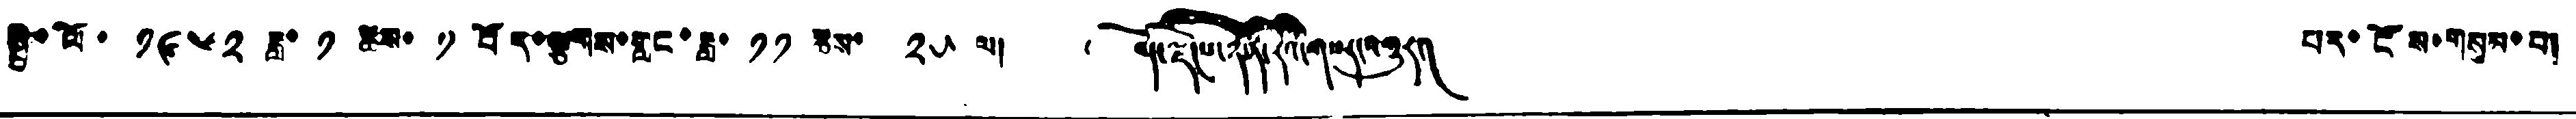སྤྱི་ལོ་ ༡༩༦༢ ཟླ་ ༡ ཚེས་ ༡ བོད་ལྕགས་གླང་ཟླ་ ༡༡ ཚེས་ ༢༥ ལ། ༄ བོད་ལྗོངས་ཉོན་རེའི་གསར་འགྱུར། པར་ངོས་གསུམ་པ།
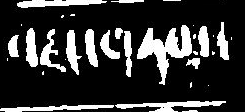བརྗོད་གཏམ་
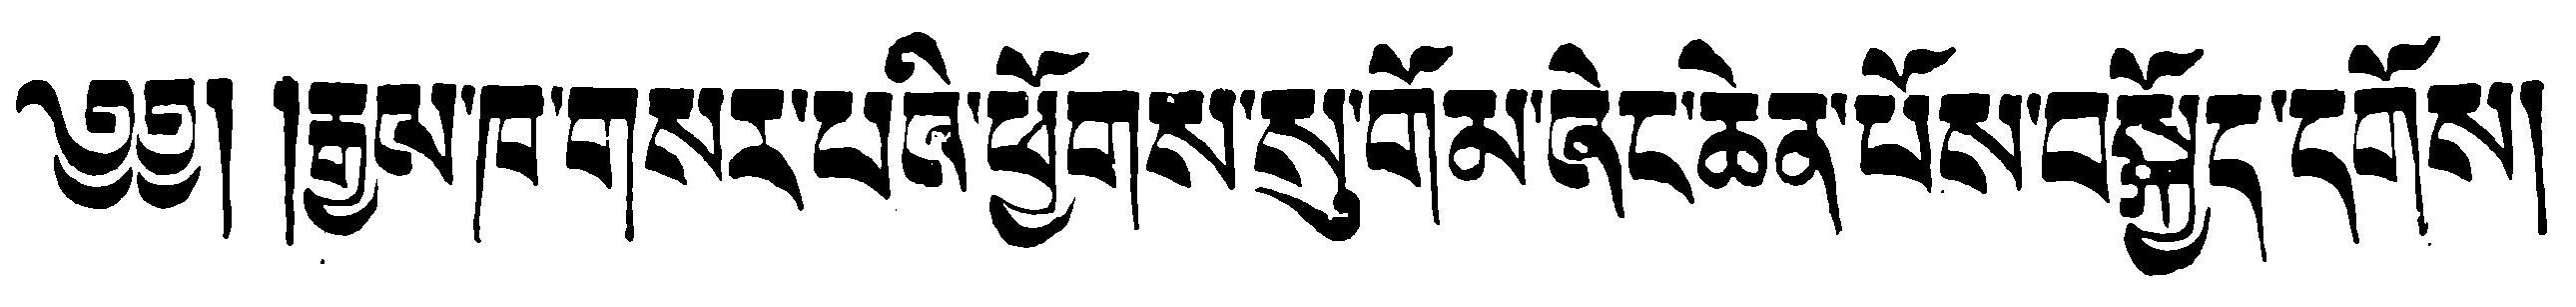༄༅། །རྒྱལ་ཁ་གསར་པའི་ཕྱོགས་སུ་གོམ་ཞེང་ཆེན་པོས་བསྐྱོད་དགོས།
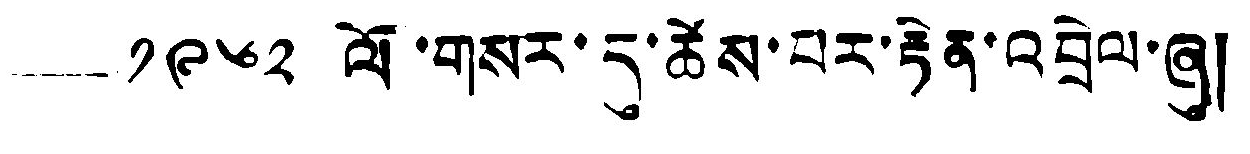——༡༩༦༢ ལོ་གསར་དུ་ཚེས་པར་རྟེན་འབྲེལ་ཞུ།
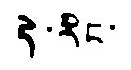དེ་རིང་
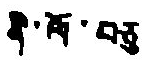ནི་ལོ་བཅུ་
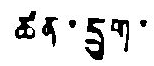ཚན་དྲུག་
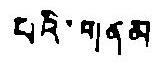པའི་གནམ
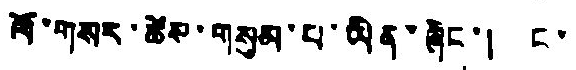ལོ་གསར་ཚེས་གསུམ་པ་ཡིན་ཞིང་། ང་
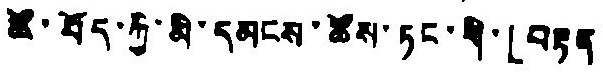ཚོ་བོད་ཀྱི་མི་དམངས་ཚོས་ཏང་གི་「བརྟན
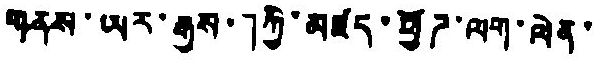གནས་ཡར་རྒྱས་」ཀྱི་མཛད་ཕྱོཌ་ལག་ལེན་
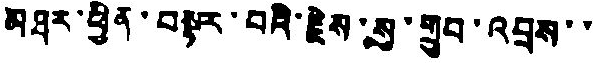མཐར་ཕྱིན་བསྟར་བའི་རྗེས་སུ་གྲུབ་འབྲས་་
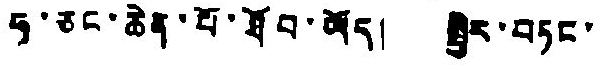ཧ་ཅང་ཆེན་པོ་ཐོབ་ཡོད། སྤྱིར་བཏང་
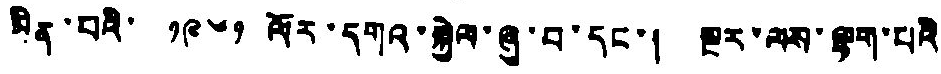མིན་པའི་ ༡༩༦༡ ལོར་དགའ་སྐྱེལ་ཞུ་བ་དང་། སྔར་ལས་ལྷག་པའི
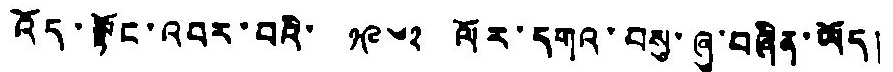འོད་སྟོང་འབར་བའི་ ༡༩༦༢ ལོར་དགའ་བསུ་ཞུ་བཞིན་ཡོད།
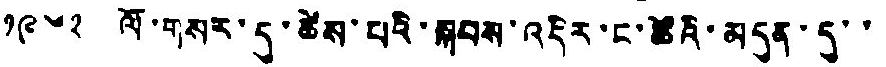༡༩༦༢ ལོ་གསར་དུ་ཚེས་པའི་སྐབས་འདིར་ང་ཚོའི་མདུན་དུ་་
